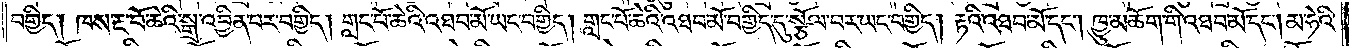བགྱིད། ཁས་རྔ་པོ་ཆེའི་སྒྲ་འབྱིན་པར་བགྱིད། གླང་པོ་ཆེའི་འཐབ་མོ་ཡང་བགྱིད། གླང་པོ་ཆེའི་འཐབ་མོ་བགྱིད་དུ་སྩོལ་བར་ཡང་བགྱིད། རྟའི་འཐབ་མོ་དང༌། ཁྱུ་མཆོག་གི་འཐབ་མོ་དང༌། མ་ཧེའི་
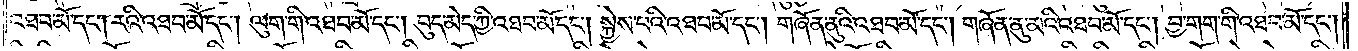འཐབ་མོ་དང༌། རའི་འཐབ་མོ་དང༌། ལུག་གི་འཐབ་མོ་དང༌། བུད་མེད་ཀྱི་འཐབ་མོ་དང༌། སྐྱེས་པའི་འཐབ་མོ་དང༌། གཞོན་ནུའི་འཐབ་མོ་དང༌། གཞོན་ནུ་མའི་འཐབ་མོ་དང༌། བྱ་གག་གི་འཐབ་མོ་དང༌།
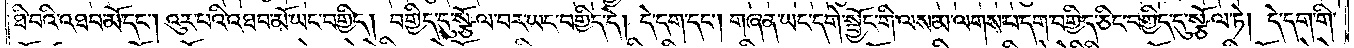ཐི་བའི་འཐབ་མོ་དང༌། འུར་པའི་འཐབ་མོ་ཡང་བགྱིད། བགྱིད་དུ་སྩོལ་བར་ཡང་བགྱིད་དེ། དེ་དག་དང༌། གཞན་ཡང་དགེ་སྦྱོང་གི་ལས་མ་ལགས་པ་དག་བགྱིད་ཅིང་བགྱིད་དུ་སྩོལ་ཏེ། དེ་དག་གི་
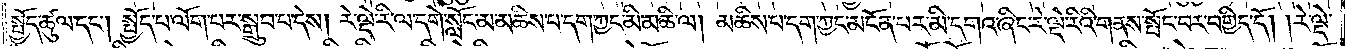སྤྱོད་ཚུལ་དང༌། སྤྱོད་པ་ལོག་པར་སྒྲུབ་པ་དེས། རེ་ལྡེ་རི་ལ་དགེ་སློང་མ་མཆིས་པ་དག་ཀྱང་མི་མཆི་ལ། མཆིས་པ་དག་ཀྱང་མངོན་པར་མི་དགའ་ཞིང་རེ་ལྡེ་རིའི་གནས་སྤོང་བར་བགྱིད་དོ། །རེ་ལྡེ་
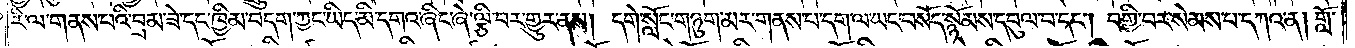རི་ལ་གནས་པའི་བྲམ་ཟེ་དང་ཁྱིམ་བདག་ཀྱང་ཡིད་མི་དགའ་ཞིང་ཞེ་ལྕི་བར་གྱུར་ནས། དགེ་སློང་གཉུག་མར་གནས་པ་དག་ལ་ཡང་བསོད་སྙོམས་དབུལ་བ་དང༌། བགྱི་བར་སེམས་པ་དཀའ་ན། གློ་
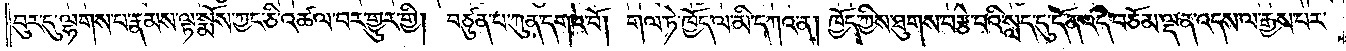བུར་དུ་ལྷགས་པ་རྣམས་ལྟ་སྨོས་ཀྱང་ཅི་འཚལ་བར་གྱུར་གྱི། བཙུན་པ་ཀུན་དགའ་བོ། གལ་ཏེ་ཁྱོད་ལ་མི་དཀའ་ན། ཁྱོད་ཀྱིས་ཐུགས་བརྩེ་བའི་སླད་དུ་དོན་འདི་བཅོམ་ལྡན་འདས་ལ་རྒྱས་པར་
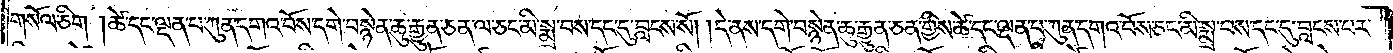གསོལ་ཅིག །ཚེ་དང་ལྡན་པ་ཀུན་དགའ་བོས་དགེ་བསྙེན་ཆུ་རྒྱུན་ཅན་ལ་ཅང་མི་སྨྲ་བས་དང་དུ་བླངས་སོ། །དེ་ནས་དགེ་བསྙེན་ཆུ་རྒྱུན་ཅན་གྱིས་ཚེ་དང་ལྡན་པ་ཀུན་དགའ་བོས་ཅང་མི་སྨྲ་བས་དང་དུ་བླངས་པར་
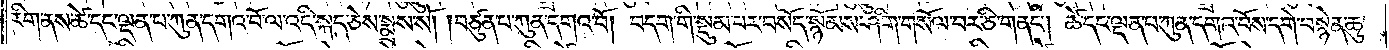རིག་ནས་ཚེ་དང་ལྡན་པ་ཀུན་དགའ་བོ་ལ་འདི་སྐད་ཅེས་སྨྲས་སོ། །བཙུན་པ་ཀུན་དགའ་བོ། བདག་གི་སྡུམ་པར་བསོད་སྙོམས་ཤིག་གསོལ་བར་ཅི་གནང༌། ཚེ་དང་ལྡན་པ་ཀུན་དགའ་བོས་དགེ་བསྙེན་ཆུ་
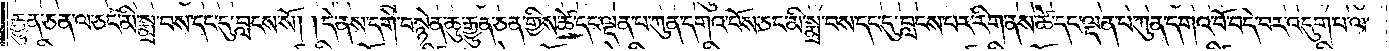རྒྱུན་ཅན་ལ་ཅང་མི་སྨྲ་བས་དང་དུ་བླངས་སོ། །དེ་ནས་དགེ་བསྙེན་ཆུ་རྒྱུན་ཅན་གྱིས་ཚེ་དང་ལྡན་པ་ཀུན་དགའ་བོས་ཅང་མི་སྨྲ་བས་དང་དུ་བླངས་པར་རིག་ནས་ཚེ་དང་ལྡན་པ་ཀུན་དགའ་བོ་བདེ་བར་འདུག་པ་ལ་
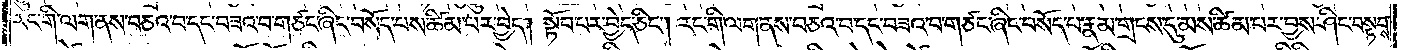རང་གི་ལག་ནས་བཅའ་བ་དང་བཟའ་བ་གཙང་ཞིང་བསོད་པས་ཚིམ་པར་བྱེད། སྟོབ་པར་བྱེད་ཅིང༌། རང་གི་ལག་ནས་བཅའ་བ་དང་བཟའ་བ་གཙང་ཞིང་བསོད་པ་རྣམ་གྲངས་དུ་མས་ཚིམ་པར་བྱས་ཤིང་བསྟབས་
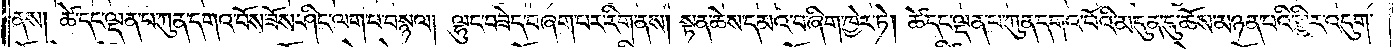ནས། ཚེ་དང་ལྡན་པ་ཀུན་དགའ་བོས་ཟོས་ཤིང་ལག་པ་བསྙལ། ལྷུང་བཟེད་བཞག་པར་རིག་ནས། སྟན་ཆེས་དམའ་བ་ཞིག་ཁྱེར་ཏེ། ཚེ་དང་ལྡན་པ་ཀུན་དགའ་བོའི་མདུན་དུ་ཆོས་མཉན་པའི་ཕྱིར་འདུག་
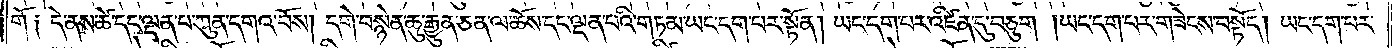གོ ༑ དེ་ནས་ཚེ་དང་ལྡན་པ་ཀུན་དགའ་བོས། དགེ་བསྙེན་ཆུ་རྒྱུན་ཅན་ལ་ཆོས་དང་ལྡན་པའི་གཏམ་ཡང་དག་པར་སྟོན། ཡང་དག་པར་འཛིན་དུ་བཅུག །ཡང་དག་པར་གཟེངས་བསྟོད། ཡང་དག་པར་
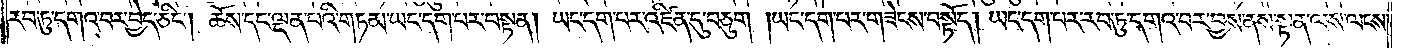རབ་ཏུ་དགའ་བར་བྱེད་ཅིང༌། ཆོས་དང་ལྡན་པའི་གཏམ་ཡང་དག་པར་བསྟན། ཡང་དག་པར་འཛིན་དུ་བཅུག །ཡང་དག་པར་གཟེངས་བསྟོད། ཡང་དག་པར་རབ་ཏུ་དགའ་བར་བྱས་ནས་སྟན་ལས་ལངས་
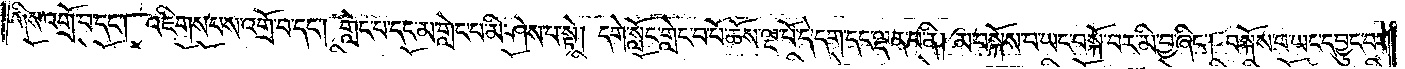གིས་འགྲོ་བ་དང༌། འཇིགས་པས་འགྲོ་བ་དང༌། གླེང་པ་དང་མ་གླེང་པ་མི་ཤེས་པ་སྟེ། དགེ་སློང་གླེང་བ་པོ་ཆོས་ལྔ་པོ་དེ་དག་དང་ལྡན་པ་ནི། མ་བསྐོས་པ་ཡང་བསྐོ་བར་མི་བྱ་ཞིང༌། བསྐོས་པ་ཡང་དབྱུང་བར་
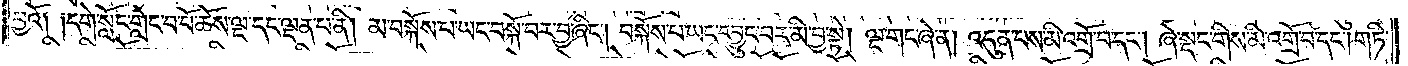བྱའོ། །དགེ་སློང་གླེང་བ་པོ་ཆོས་ལྔ་དང་ལྡན་པ་ནི། མ་བསྐོས་པ་ཡང་བསྐོ་བར་བྱ་ཞིང༌། བསྐོས་པ་ཡང་དབྱུང་བར་མི་བྱ་སྟེ། ལྔ་གང་ཞེ་ན། འདུན་པས་མི་འགྲོ་བ་དང༌། ཞེ་སྡང་གིས་མི་འགྲོ་བ་དང༌།གཏི་
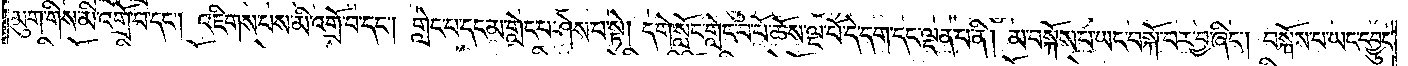མུག་གིས་མི་འགྲོ་བ་དང༌། འཇིགས་པས་མི་འགྲོ་བ་དང༌། གླེང་པ་དང་མ་གླེང་པ་ཤེས་པ་སྟེ། དགེ་སློང་གླེང་པ་པོ་ཆོས་ལྔ་པོ་དེ་དག་དང་ལྡན་པ་ནི། མ་བསྐོས་པ་ཡང་བསྐོ་བར་བྱ་ཞིང༌། བསྐོས་པ་ཡང་དབྱུང་
